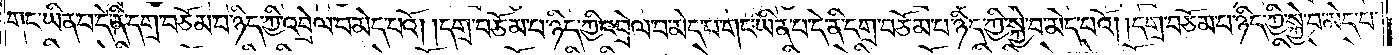གང་ཡིན་པ་དེ་ནི་དགྲ་བཅོམ་པ་ཉིད་ཀྱི་འབྲེལ་པ་མེད་པའོ། །དགྲ་བཅོམ་པ་ཉིད་ཀྱི་འབྲེལ་པ་མེད་པ་གང་ཡིན་པ་དེ་ནི་དགྲ་བཅོམ་པ་ཉིད་ཀྱི་སྐྱེ་བ་མེད་པའོ། །དགྲ་བཅོམ་པ་ཉིད་ཀྱི་སྐྱེ་བ་མེད་པ་
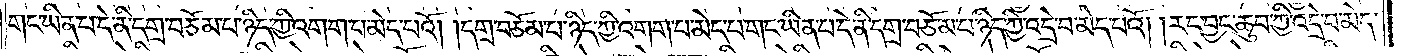གང་ཡིན་པ་དེ་ནི་དགྲ་བཅོམ་པ་ཉིད་ཀྱི་འགག་པ་མེད་པའོ། །དགྲ་བཅོམ་པ་ཉིད་ཀྱི་འགག་པ་མེད་པ་གང་ཡིན་པ་དེ་ནི་དགྲ་བཅོམ་པ་ཉིད་ཀྱི་འདྲེ་བ་མེད་པའོ། །རང་བྱང་ཆུབ་ཀྱི་འདྲེ་བ་མེད་
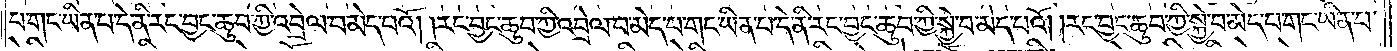པ་གང་ཡིན་པ་དེ་ནི་རང་བྱང་ཆུབ་ཀྱི་འབྲེལ་པ་མེད་པའོ། །རང་བྱང་ཆུབ་ཀྱི་འབྲེལ་པ་མེད་པ་གང་ཡིན་པ་དེ་ནི་རང་བྱང་ཆུབ་ཀྱི་སྐྱེ་བ་མེད་པའོ། །རང་བྱང་ཆུབ་ཀྱི་སྐྱེ་བ་མེད་པ་གང་ཡིན་པ་
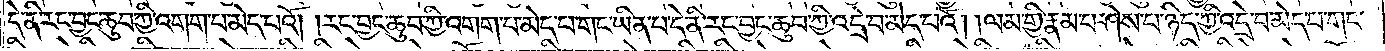དེ་ནི་རང་བྱང་ཆུབ་ཀྱི་འགག་པ་མེད་པའོ། །རང་བྱང་ཆུབ་ཀྱི་འགག་པ་མེད་པ་གང་ཡིན་པ་དེ་ནི་རང་བྱང་ཆུབ་ཀྱི་འདྲེ་བ་མེད་པའོ། །ལམ་གྱི་རྣམ་པ་ཤེས་པ་ཉིད་ཀྱི་འདྲེ་བ་མེད་པ་གང་
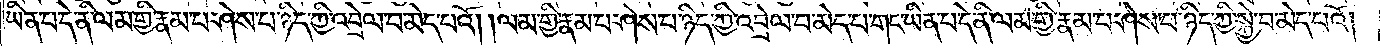ཡིན་པ་ད་ནི་ལམ་གྱི་རྣམ་པ་ཤེས་པ་ཉིད་ཀྱི་འབྲེལ་པ་མེད་པའོ། ལམ་གྱི་རྣམ་པ་ཤེས་པ་ཉིད་ཀྱི་འབྲེལ་པ་མེད་པ་གང་ཡིན་པ་དེ་ནི་ལམ་གྱི་རྣམ་པ་ཤེས་པ་ཉིད་ཀྱི་སྐྱེ་བ་མེད་པའོ། །
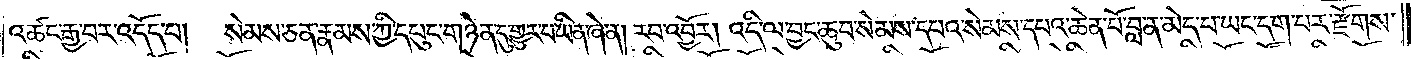འཚང་རྒྱ་བར་འདོད་པ། སེམས་ཅན་རྣམས་ཀྱི་དཔུང་གཉེན་དུ་གྱུར་པ་ཡིན་ཞེ་ན། རབ་འབྱོར། འདི་ལ་བྱང་ཆུབ་སེམས་དཔའ་སེམས་དཔའ་ཆེན་པོ་བླ་ན་མེད་པ་ཡང་དག་པར་རྫོགས་
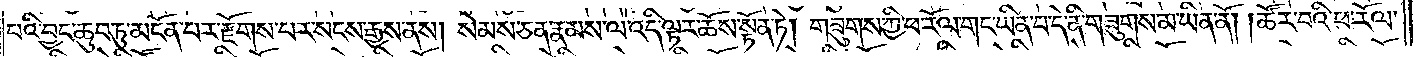པའི་བྱང་ཆུབ་ཏུ་མངོན་པར་རྫོགས་པར་སངས་རྒྱས་ནས། སེམས་ཅན་རྣམས་ལ་འདི་ལྟར་ཆོས་སྟོན་ཏེ། གཟུགས་ཀྱི་ཕ་རོལ་གང་ཡིན་པ་དེ་ནི་གཟུགས་མ་ཡིན་ནོ། །ཚོར་བའི་ཕ་རོལ་
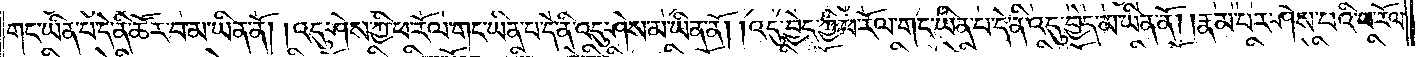གང་ཡིན་པ་དེ་ནི་ཚོར་བ་མ་ཡིན་ནོ། །འདུ་ཤེས་ཀྱི་ཕ་རོལ་གང་ཡིན་པ་དེ་ནི་འདུ་ཤེས་མ་ཡིན་ནོ། །འདུ་བྱེད་ཀྱི་ཕ་རོལ་གང་ཡིན་པ་དེ་ན་འདུ་བྱེད་མ་ཡིན་ནོ། །རྣམ་པར་ཤེས་པའི་ཕ་རོལ་
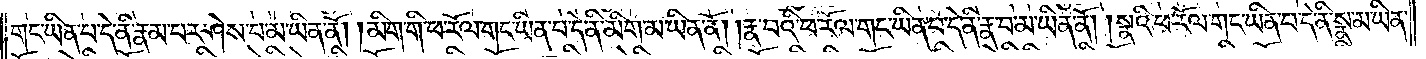གང་ཡིན་པ་དེ་ནི་རྣམ་པར་ཤེས་པ་མ་ཡིན་ནོ། །མིག་གི་ཕ་རོལ་གང་ཡིན་པ་དེ་ནི་མིག་མ་ཡིན་ནོ། །རྣ་བའི་ཕ་རོལ་གང་ཡིན་པ་དེ་ནི་རྣ་བ་མ་ཡིན་ནོ། །སྣའི་ཕ་རོལ་གང་ཡིན་པ་དེ་ནི་སྣ་མ་ཡིན་
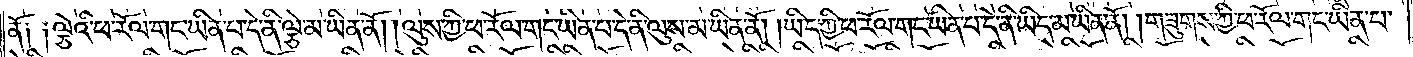ནོ། །ལྕེའི་ཕ་རོལ་གང་ཡིན་པ་དེ་ནི་ལྕེ་མ་ཡིན་ནོ། །ལུས་ཀྱི་ཕ་རོལ་གང་ཡིན་པ་དེ་ནི་ལུས་མ་ཡིན་ནོ། །ཡིད་ཀྱི་ཕ་རོལ་གང་ཡིན་པ་དེ་ན་ཡིད་མ་ཡིན་ནོ། །གཟུགས་ཀྱི་ཕ་རོལ་གང་ཡིན་པ་
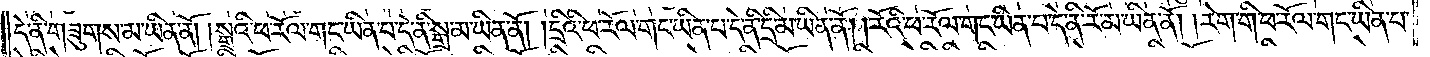དེ་ནི་གཟུགས་མ་ཡིན་ནོ། །སྒྲའི་ཕ་རོལ་གང་ཡིན་པ་དེ་ནི་སྒྲ་མ་ཡིན་ནོ། །དྲིའི་ཕ་རོལ་གང་ཡིན་པ་དེ་ནི་དྲི་མ་ཡིན་ནོ། །རོའི་ཕ་རོལ་གང་ཡིན་པ་དེ་ནི་རོ་མ་ཡིན་ནོ། །རེག་གི་ཕ་རོལ་གང་ཡིན་པ་
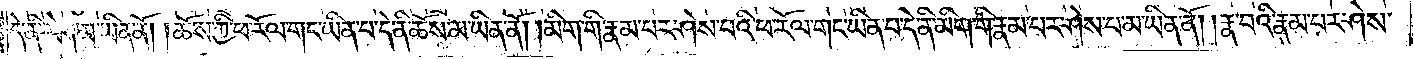དེ་ནི་རེག་མ་ཡིན་ནོ། །ཆོས་ཀྱི་ཕ་རོལ་གང་ཡིན་པ་དེ་ནི་ཆོས་མ་ཡིན་ནོ། །མིག་གི་རྣམ་པར་ཤེས་པའི་ཕ་རོལ་གང་ཡིན་པ་དེ་ནི་མིག་གི་རྣམ་པར་ཤེས་པ་མ་ཡིན་ནོ། །རྣ་བའི་རྣམ་པར་ཤེས་
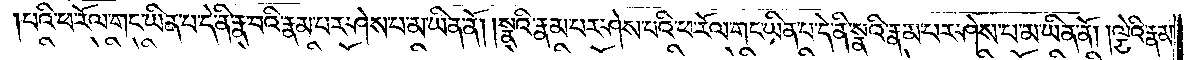པའི་ཕ་རོལ་གང་ཡིན་པ་དེ་ནི་རྣ་བའི་རྣམ་པར་ཤེས་པ་མ་ཡིན་ནོ། །སྣའི་རྣམ་པར་ཤེས་པའི་ཕ་རོལ་གང་ཡིན་པ་དེ་ནི་སྣའི་རྣམ་པར་ཤེས་པ་མ་ཡིན་ནོ། །ལྕེའི་རྣམ་
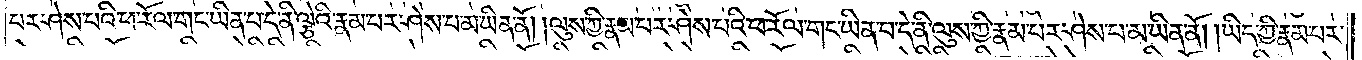པར་ཤེས་པའི་ཕ་རོལ་གང་ཡིན་པ་དེ་ནི་ལྕེའི་རྣམ་པར་ཤེས་པ་མ་ཡིན་ནོ། །ལུས་ཀྱི་རྣམ་པར་ཤེས་པའི་ཕ་རོལ་གང་ཡིན་པ་དེ་ནི་ལུས་ཀྱི་རྣམ་པར་ཤེས་པ་མ་ཡིན་ནོ། །ཡིད་ཀྱི་རྣམ་པར་
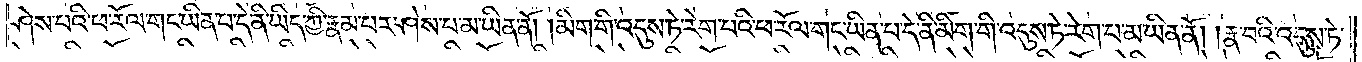ཤེས་པའི་ཕ་རོལ་གང་ཡིན་པ་དེ་ནི་ཡིད་ཀྱི་རྣམ་པར་ཤེས་པ་མ་ཡིན་ནོ། །མིག་གི་འདུས་ཏེ་རེག་པའི་ཕ་རོལ་གང་ཡིན་པ་དེ་ནི་མིག་གི་འདུས་ཏེ་རེག་པ་མ་ཡིན་ནོ། །རྣ་བའི་འདུས་ཏེ་
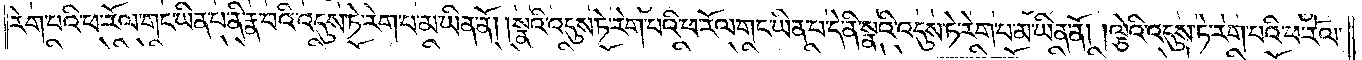རེག་པའི་ཕ་རོལ་གང་ཡིན་པ་དེ་ནི་རྣ་བའི་འདུས་ཏེ་རེག་པ་མ་ཡིན་ནོ། །སྣའི་འདུས་ཏེ་རེག་པའི་ཕ་རོལ་གང་ཡིན་པ་དེ་ནི་སྣའི་འདུས་ཏེ་རེག་པ་མ་ཡིན་ནོ། །ལྕེའི་འདུས་ཏེ་རེག་པའི་ཕ་རོལ་
